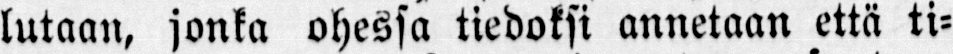lutaan, jonka ohessa tiedoksi annetaan että ti-
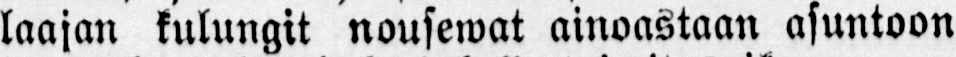laajan kulungit nousewat ainoastaan asuntoon
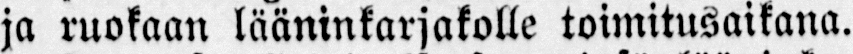ja ruokaan lääninkarjakolle toimitusaikana.
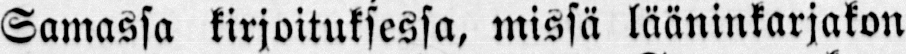Samassa kirjoituksessa, missä lääninkarjakon
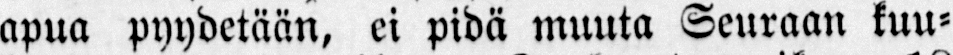apua pyydetään, ei pidä muuta Seuraan kuu-
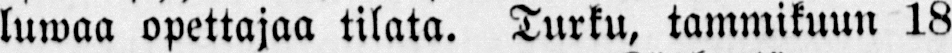luwaa opettajaa tilata. Turku, tammikuun 18
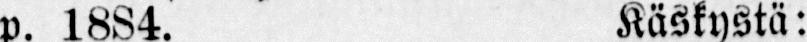p. 1884. Käskystä:
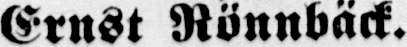Ernst Rönnbäck.
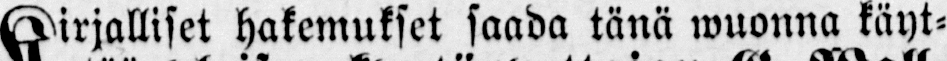Kirjalliset hakemukset saada tänä wuonna käyt-
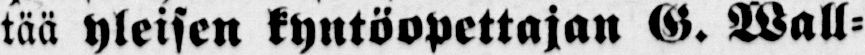tää yleisen kyntöopettajan G. Wall-
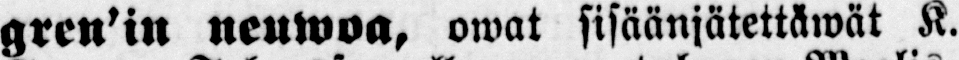gren ’ in neuwoa, owat sisäänjätettäwät K.
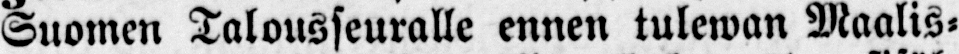Suomen Talousseuralle ennen tulewan Maalis-
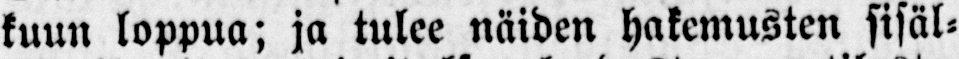kuun loppua; ja tulee näiden hakemusten sisäl-
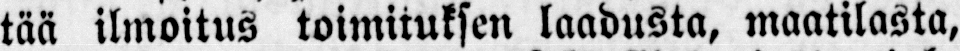tää ilmoitus toimituksen laadusta, maatilasta,
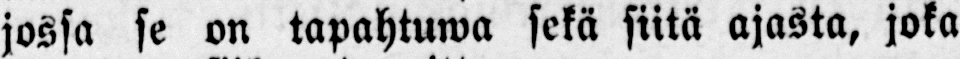jossa se on tapahtuwa sekä siitä ajasta, joka
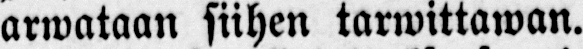arwataan siihen tarwittawan.
